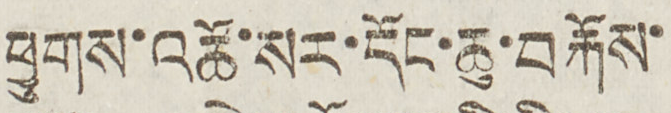ཕྱུགས་འཚོ་སར་དོང་ཆུ་བརྐོས་
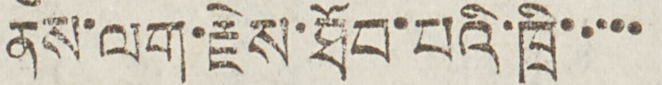ནས་ལག་རྗེས་ཐོབ་པའི་ཁྲི་་་་་
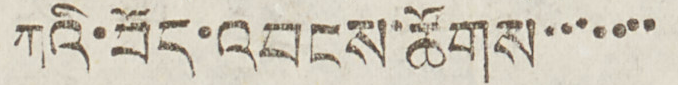ཀའི་བོད་འབངས་ཚོགས་་་་་་་
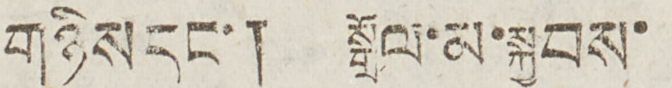གཉིས དང་། སྒྲོལ་མ་སྐྱབས་
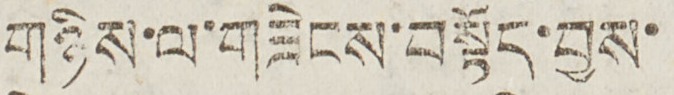གཉིས་ལ་གཟེངས་བསྟོད་བྱས་
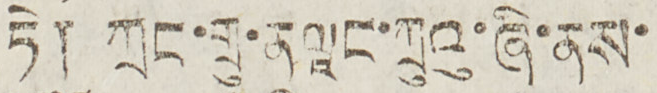ཏེ། ཀྲང་གྲུ་ནལཱང་ཀྲུའུ་ཞི་ནས་
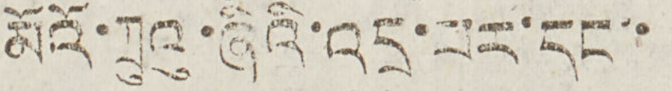མའོ་ཀྲུའུ་ཞིའི་འདྲ་པར་དང་་
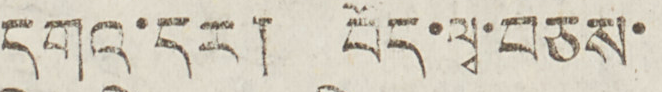དགའ་དར། བོད་ལྭ་བཅས་
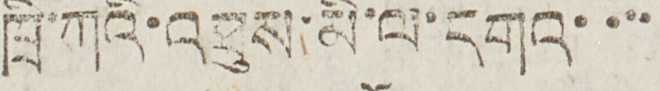ཁྲི་ཀའི་འཐུས་མི་ལ་དགའ་་་་
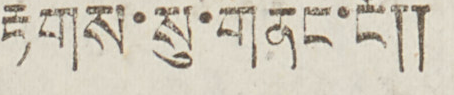རྟགས་སུ་གནང་ངོ༎
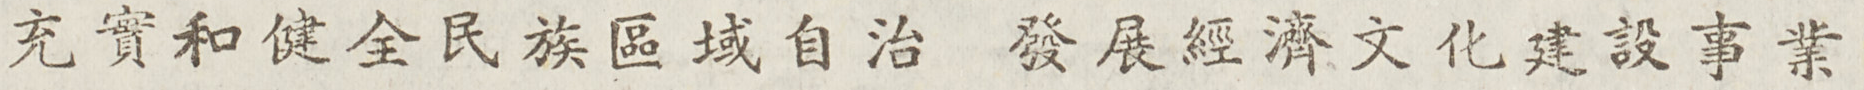充實和健全民族區域自治 發展經濟文化建設事業
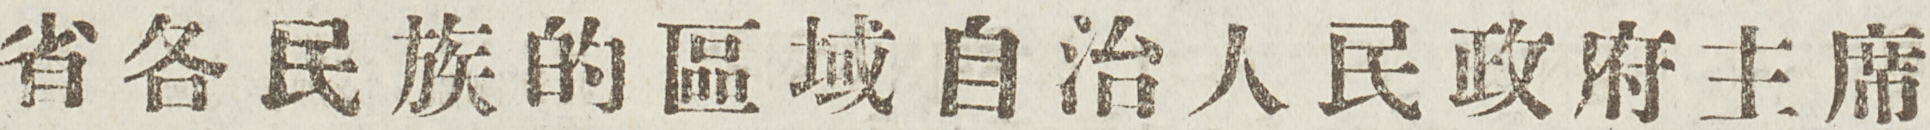省各民族的區域自治人民政府主席
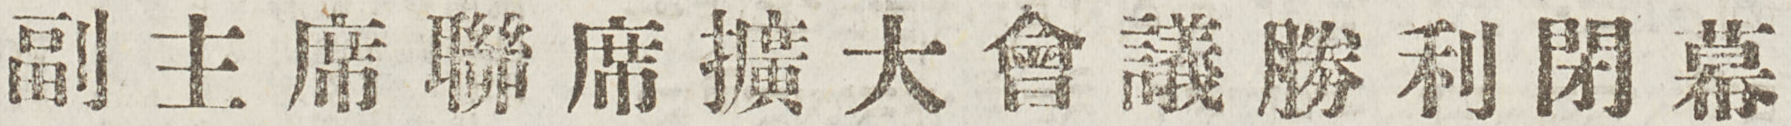副主席聯席擴大會議勝利閉幕
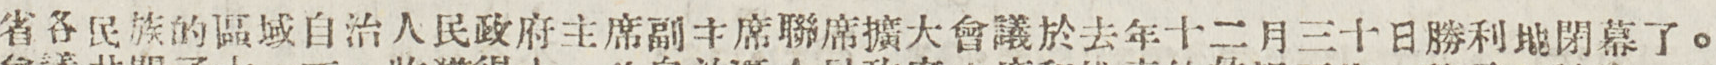省各民族的區域自治人民政府主席副主席聯席擴大會議於去年十二月三十日勝利地閉幕了。
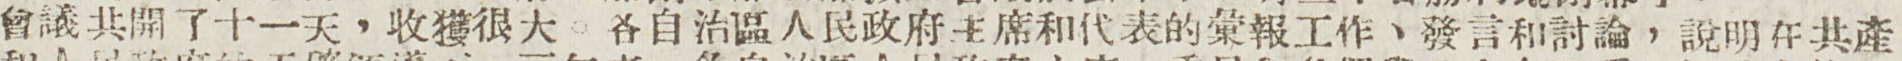會議共開了十一天，收穫很大。各自治區人民政府主席和代表的彙報工作、發言和討論，說明在共產
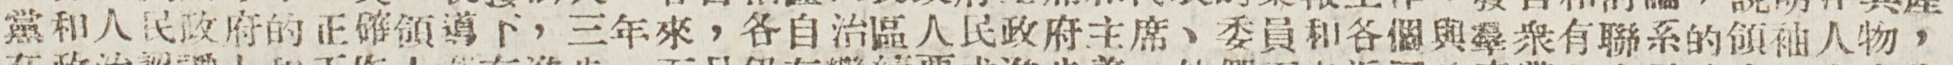黨和人民政府的正確領導下，三年來，各自治區人民政府主席、委員和各個與羣衆有聯繫的領袖人物，
